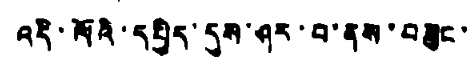འདི་ལོའི་དཔྱིད་དུས་ཤར་བ་ནས་བཟུང་
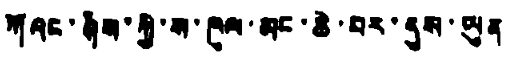ཀོའང་ཤིས་ཀྱི་ས་ཁུལ་མང་ཆེ་བར་དུས་ཡུན
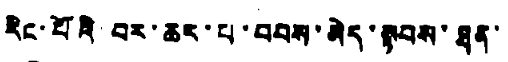རིང་པོའི་བར་ཆར་པ་བབས་མེད་སྐབས་ཐན་
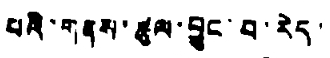པའི་གནས་ཚུལ་བྱུང་བ་རེད།
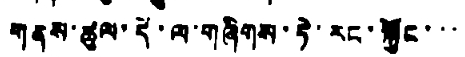གནས་ཚུལ་དེ་ལ་གཞིགས་ཏེ་རང་སྐྱོང་་་
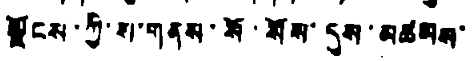ལྗོངས་ཀྱི་ས་གནས་སོ་སོས་དུས་མཚམས་
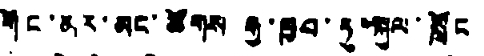གོང་མར་མང་ཚོགས རྒྱ་ཁྱབ་ཏུ་སྐུལ་སློང
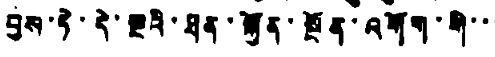བྱས་ཏེ་དེ་སྔའི་ཐན་སྐྱོན་སྔོན་འགོག་གི་་་
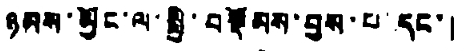ཉམས་མྱོང་ལ་སྤྱི་བསྡོམས་བྱས་པ་དང་།
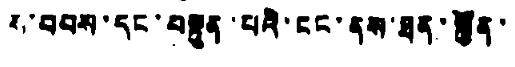ས་བབས་དང་བསྟུན་པའི་ངང་ནས་ཐན་སྐྱོན་
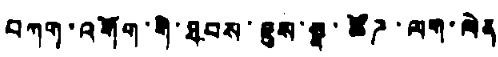བཀག་འགོག་གི་ཐབས་ཇུས་སྣ་ཚོཌ་ལག་ལེན
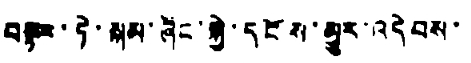བསྟར་ཏེ་སྐམ་ཞིང་སྐྱེ་དངོས་མྱུར་འདེབས་་
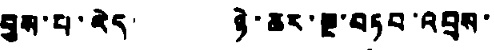བྱས་པ་རེད། ཉེ་ཆར་ལྔ་བཏབ་འབྲས་
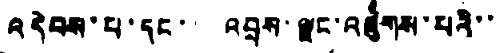འདེབས་པ་དང་། འབྲས་ལྗང་འཛུགས་པའི་་
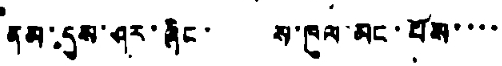ནམ་དུས་ཤར་ཞིང་ ས་ཁུལ་མང་པོས་་་་
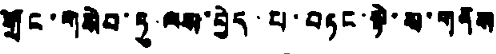གྲོང་གསེབ་ཏུ ལས་བྱེད་པ་བཏང་སྟེ་ས་གནས
